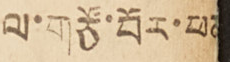ལ་གཙོ་བོར་ཕན
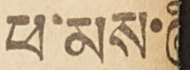ཕ་མས་ཞི
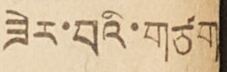ཟེར་བའི་གཙག
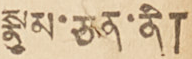སྣུམ་ཅན་ནི།
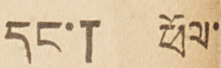དང་། ཕོལ་
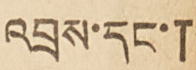འབྲས་དང་།
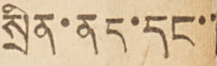སྲིན་ནད་དང་་
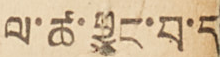ལ་ཚ་བྱུང་བ་ད
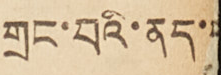གྲང་བའི་ནད་
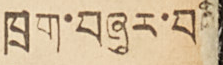ཁྲག་བཞུར་བའི་
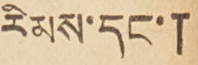རིམས་དང་།
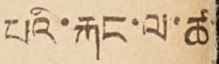པའི་རྐང་ལ་ཚ་
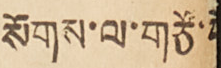སོགས་ལ་གཙོ་བོ
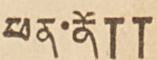ཕན་ནོ༎
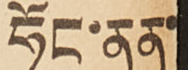ཧོང་ནན་
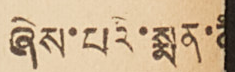ཞེས་པའི་སྨན་ནི
